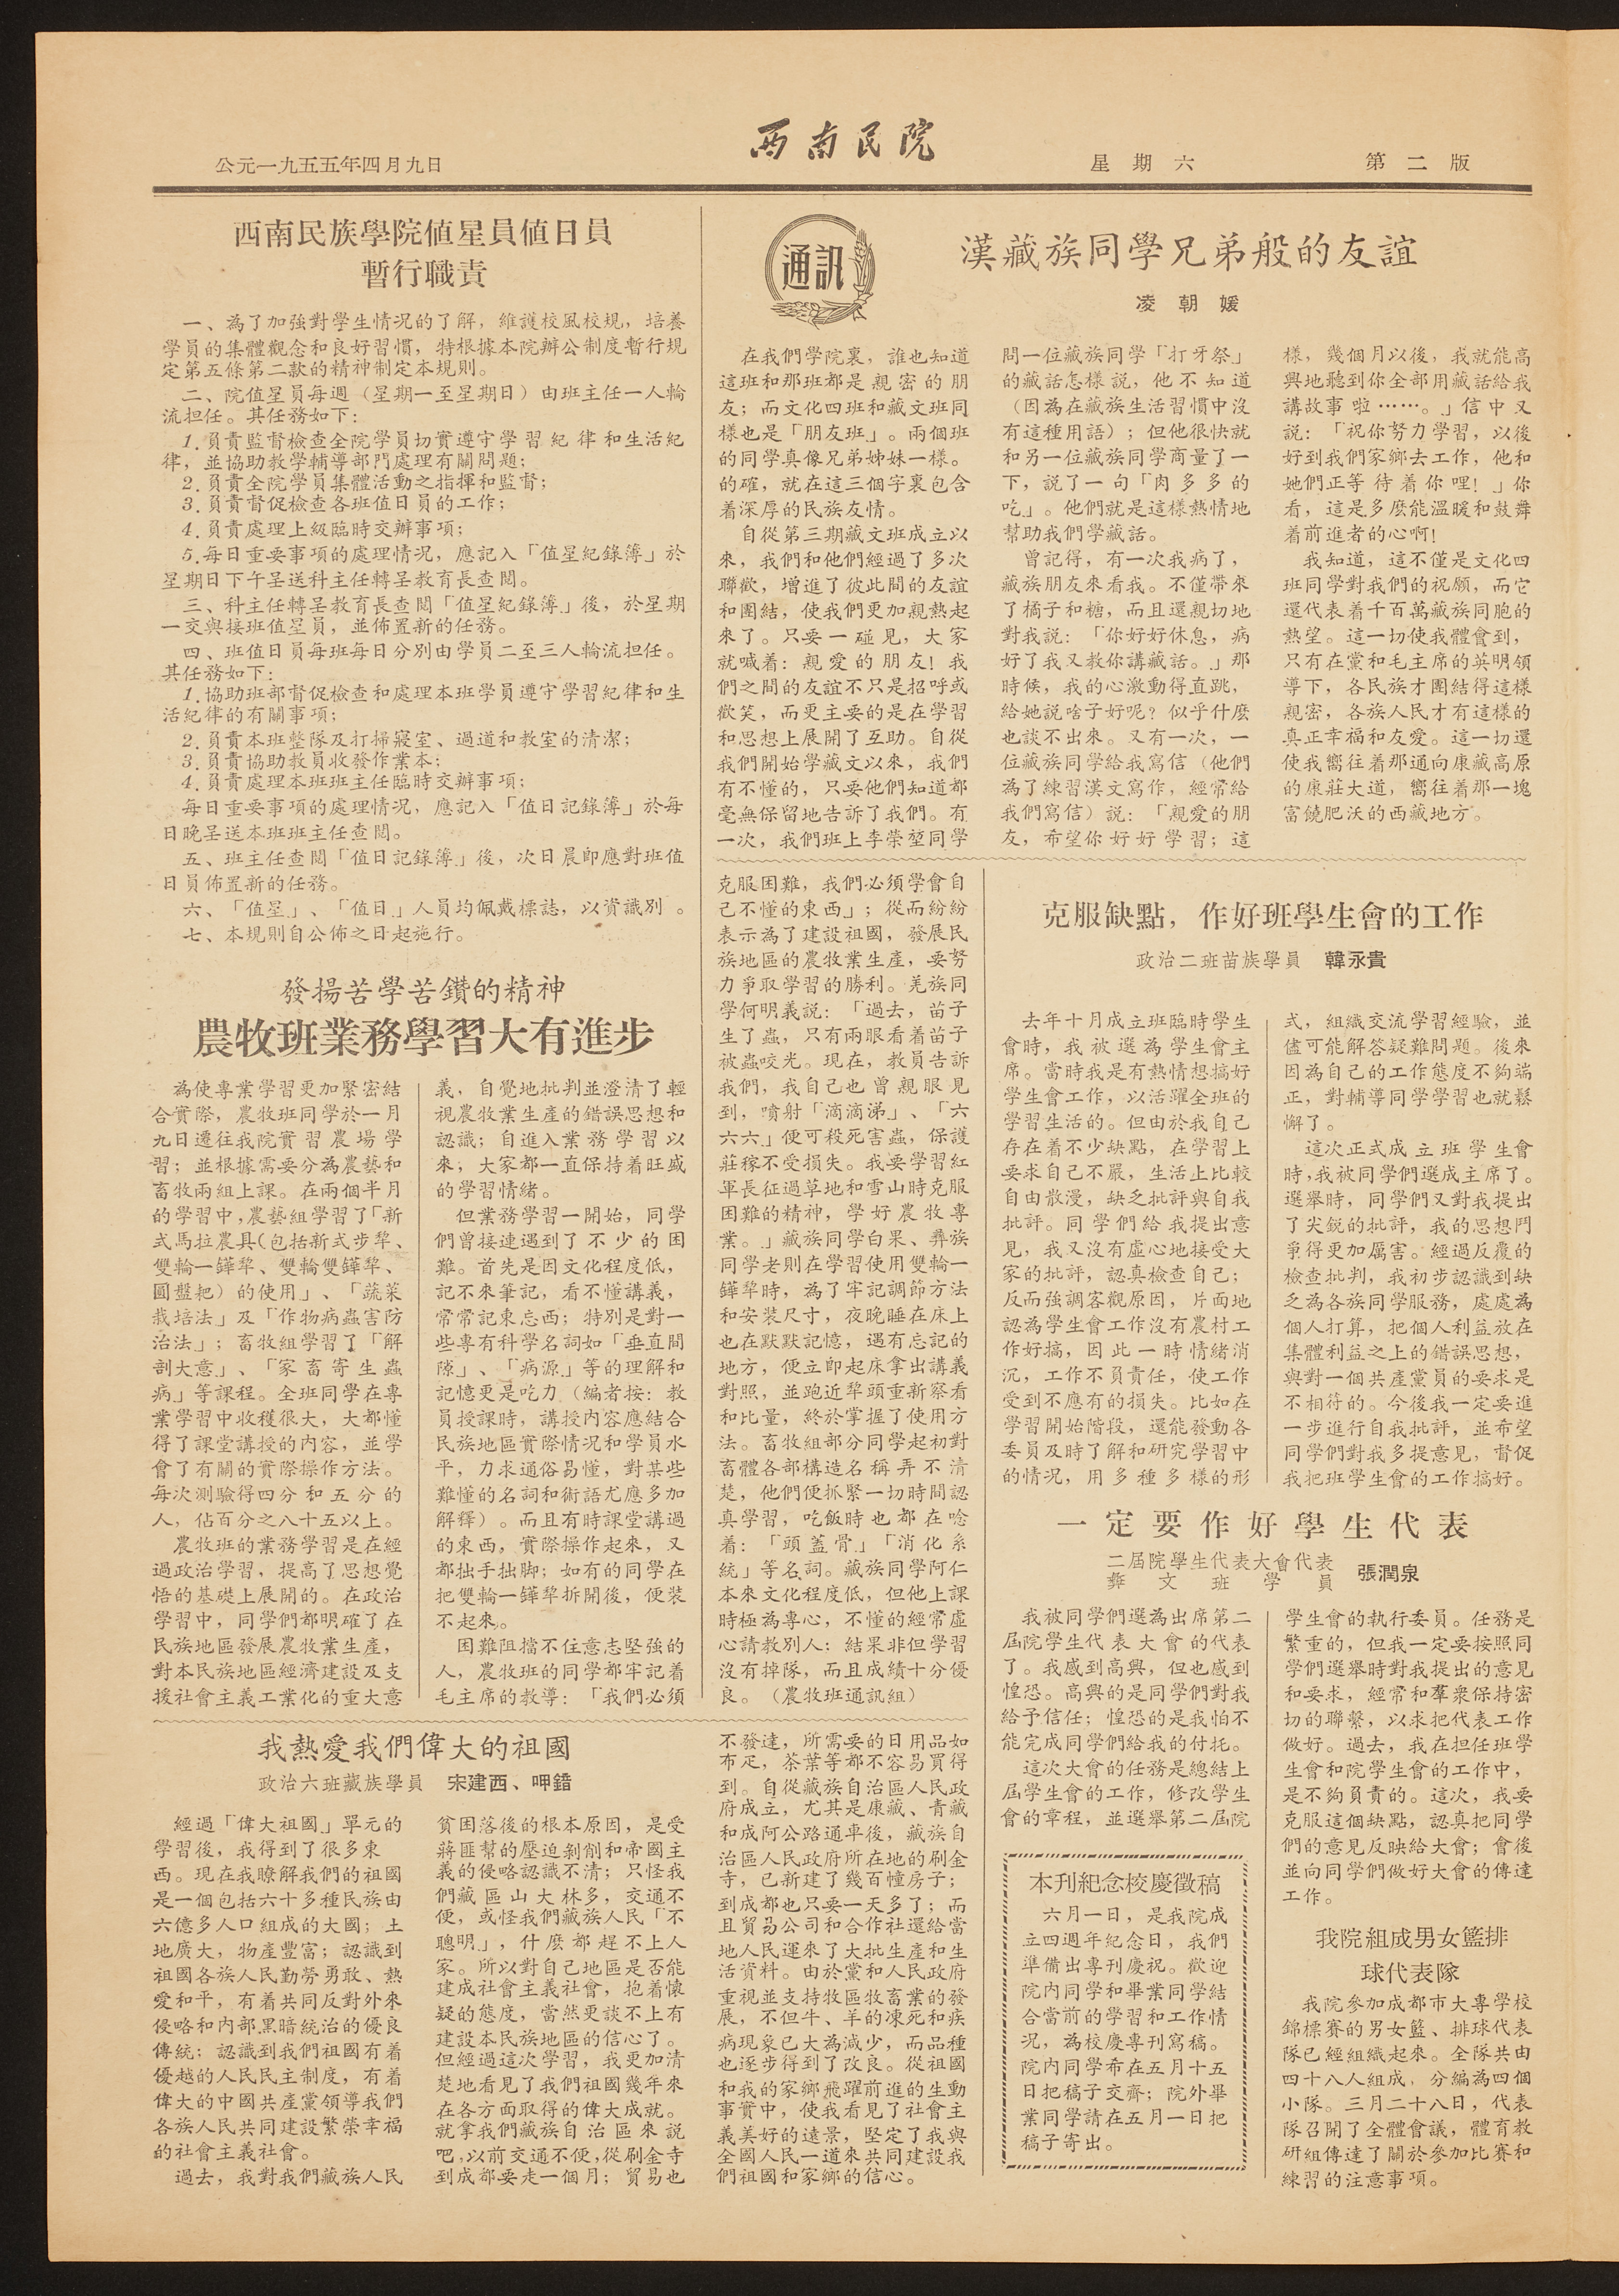公元一九五五年四月九日 西南民院 星期六 第二版
通訊
漢藏族同學兄弟般的友誼
凌朝媛
在我們學院裏，誰也知道
這班和那班都是親密的朋
友；而文化四班和藏文版同
樣也是「朋友班」。兩個班
的同學真像兄弟姊妹一樣。
的確，就在這三個字裏包含
着深厚的民族友情。
自從第三期藏文班成立以
來，我們和他們經過了多次
聯歡，增進了彼此間的友誼
和團結，使我們更加親熱起
來了。只要一碰見，大家
就喊着：親愛的朋友！我
們之間的友誼不只是招呼或
歡笑，而更主要的是在學習
和思想上展開了互助。自從
我們開始學藏文以來，我們
有不懂的，只要他們知道都
毫無保留地告訴了我們。有
一次，我們班上李榮堃同學
問一位藏族同學「打牙祭」
的藏話怎樣說，他不知道
（因爲在藏族生活習慣中沒
有這種用語）；但他很快就
和另一位藏族同學商量了一
下，說了一句「肉多多的
吃」。他們就是這樣熱情地
幫助我們學藏話。
曾記得，有一次我病了，
藏族朋友來看我。不僅帶來
了橘子和糖，而且還親切地
對我說：「你好好休息，病
好了我又教你講藏話。」那
時候，我的心激動得直跳，
給她說啥子好呢？似乎什麼
也談不出來。又有一次，一
位藏族同學給我寫信（他們
爲了練習漢文寫作，經常給
我們寫信）說：「親愛的朋
友，希望你好好學習；這
樣，幾個月以後，我就能高
興地聽到你全部用藏話給我
講故事啦……。」信中又
說：「祝你努力學習，以後
好到我們家鄉去工作，他和
她們正等待着你哩！」你
看，這是多麼能溫暖和鼓舞
着前進者的心啊！
我知道，這不僅是文化四
班同學對我們的祝願，而它
還代表着千百萬藏族同胞的
熱望。這一切使我體會到，
只有在黨和毛主席的英明領
導下，各民族才團結得這樣
親密，各族人民才有這樣的
真正幸福和友愛。這一切還
使我嚮往着那通向康藏高原
的康莊大道，嚮往着那一塊
富饒肥沃的西藏地方。
西南民族學院値星員値日員
暫行職責
一、爲了加強對學生情況的了解，維護校風校規，培養
學員的集體觀念和良好習慣，特根據本院辦公制度暫行規
定第五條第二款的精神制定本規則。
二、院值星員每週（星期一至星期日）由班主任一人輪
流担任。其任務如下：
1.負責監督檢查全院學員切實遵守學習紀律和生活紀
律，並協助教學輔導部門處理有關問題；
2.負責全院學員集體活動之指揮和監督；
3.負責督促檢查各班值日員的工作；
4.負責處理上級臨時交辦事項；
5.每日重要事項的處理情況，應記入「值星紀錄簿」於
星期日下午呈送科主任轉呈教育長查閱。
三、科主任轉呈教育長查閱「值星紀錄簿」後，於星期
一交與接班值星員，並佈置新的任務。
四、班值日員每班每日分別由學員二至三人輪流担任。
其任務如下：
1.協助班部督促檢查和處理本班學員遵守學習紀律和生
活紀律的有關事項；
2.負責本班整隊及打掃寢室、過道和教室的清潔；
3.負責協助教員收發作業本；
4.負責處理本班班主任臨時交辦事項；
每日重要事項的處理情況，應記入「值日紀錄簿」於每
日晚呈送本班班主任查閱。
五、班主任查閱「值日紀錄簿」後，次日晨卽應對班值
日員佈置新的任務。
六、「值星」、「值日」人員均佩戴標誌，以資識別。
七、本規則自公佈之日起施行。
發揚苦學苦鑽的精神
農牧班業務學習大有進步
爲使專業學習更加緊密結
合實際，農牧班同學於一月
九日遷往我院實習農場學
習；並根據需要分爲農藝和
畜牧兩組上課。在兩個半月
的學習中，農藝組學習了「新
式馬拉農具（包括新式步犂、
雙輪一鏵犂、雙輪雙鏵犂、
圓盤耙）的使用」、「蔬菜
栽培法」及「作物病蟲害防
治法」；畜牧組學習了「解
剖大意」、「家畜寄生蟲
病」等課程。全班同學在專
業學習中收穫很大，大都懂
得了課堂講授的內容，並學
會了有關的實際操作方法。
每次測驗得四分和五分的
人，佔百分之八十五以上。
農牧班的業務學習是在經
過政治學習，提高了思想覺
悟的基礎上展開的。在政治
學習中，同學們都明確了在
民族地區發展農牧業生產，
對本民族地區經濟建設及支
援社會主義工業化的重大意
義，自覺地批判並澄清了輕
視農牧業生產的錯誤思想和
認識；自進入業務學習以
來，大家都一致保持着旺盛
的學習情緒。
但業務學習一開始，同學
們曾接連遇到了不少的困
難。首先是因文化程度低，
記不來筆記，看不懂講義，
常常記東忘西；特別是對一
些專有科學名詞如「垂直間
隙」、「病源」等的理解和
記憶更是吃力（編者按：教
員授課時，講授內容應結合
民族地區實際情況和學員水
平，力求通俗易懂，對某些
難懂的名詞和術語尤應多加
解釋）。而且有時課堂講過
的東西，實際操作起來，又
都拙手拙脚；如有的同學在
把雙輪一鏵犂拆開後，便裝
不起來。
困難阻擋不住意志堅強的
人，農牧班的同學都牢記着
毛主席的教導：「我們必須
克服困難，我們必須學會自
己不懂的東西」；從而紛紛
表示爲了建設祖國，發展民
族地區的農牧業生產，要努
力爭取學習的勝利。羌族同
學何明義說：「過去，苗子
生了蟲，只有兩眼看着苗子
被蟲咬光。現在，教員告訴
我們，我自己也曾親眼見
到，噴射「滴滴涕」、「六
六六」便可殺死害蟲，保護
莊稼不受損失。我要學習紅
軍長征過草地和雪山時克服
困難的精神，學好農牧專
業。」藏族同學白果、彝族
同學老則在學習使用雙輪一
鏵犂時，爲了牢記調節方法
和安裝尺寸，夜晚睡在床上
也在默默記憶，遇有忘記的
地方，便立卽起床拿出講義
對照，並跑近犂頭重新察看
和比量，終於掌握了使用方
法。畜牧組部分同學起初對
畜體各部構造名稱弄不清
楚，他們便抓緊一切時間認
真學習，吃飯時也都在唸
着：「頭蓋骨」「消化系
統」等名詞。藏族同學阿仁
本來文化程度低，但他上課
時極爲專心，不懂的經常虛
心請教別人：結果非但學習
沒有掉隊，而且成績十分優
良。
（農牧班通訊組）
克服缺點，作好班學生會的工作
政治二班苗族學員 韓永貴
去年十月成立班臨時學生
會時，我被選爲學生會主
席。當時我是有熱情想搞好
學生會工作，以活躍全班的
學習生活的。但由於我自己
存在着不少缺點，在學習上
要求自己不嚴，生活上比較
自由散漫，缺乏批評與自我
批評。同學們給我提出意
見，我又沒有虛心地接受大
家的批評，認真檢查自己；
反而強調客觀原因，片面地
認爲學生會工作沒有農村工
作好搞，因此一時情緒消
沉，工作不負責任，使工作
受到不應有的損失。比如在
學習開始階段，還能發動各
委員及時了解和研究學習中
的情況，用多種多樣的形
式，組織交流學習經驗，並
儘可能解答疑難問題。後來
因爲自己的工作態度不夠端
正，對輔導同學學習也就鬆
懈了。
這次正式成立班學生會
時，我被同學們選成主席了。
選舉時，同學們又對我提出
了尖銳的批評，我的思想鬥
爭得更加厲害。經過反覆的
檢查批判，我初步認識到缺
乏為各族同學服務，處處為
個人打算，把個人利益放在
集體利益之上的錯誤思想，
與對一個共產黨員的要求是
不相符的。今後我一定要進
一步進行自我批評，並希望
同學們對我多提意見，督促
我把班學生會的工作搞好。
我熱愛我們偉大的祖國
政治六班藏族學員 宋建西、呷錯
經過「偉大祖國」單元的
學習後，我得到了很多東
西。現在我瞭解我們的祖國
是一個包括六十多種民族由
六億多人口組成的大國；土
地廣大，物產豐富；認識到
祖國各族人民勤勞勇敢、熱
愛和平，有着共同反對外來
侵略和內部黑暗統治的優良
傳統；認識到我們祖國有着
優越的人民民主制度，有着
偉大的中國共產黨領導我們
各族人民共同建設繁榮幸福
的社會主義社會。
過去，我對我們藏族人民
貧困落後的根本原因，是受
蔣匪幫的壓迫剝削和帝國主
義的侵略認識不清；只怪我
們藏區山大林多，交通不
便，或怪我們藏族人民「不
聰明」，什麼都趕不上人
家。所以對自己地區是否能
建成社會主義社會，抱着懷
疑的態度，當然更談不上有
建設本民族地區的信心了。
但經過這次學習，我更加清
楚地看見了我們祖國幾年來
在各方面取得的偉大成就。
就拿我們藏族自治區來說
吧，以前交通不便，從刷金寺
到成都要走一個月；貿易也
不發達，所需要的日用品如
布疋，茶葉等都不容易買得
到。自從藏族自治區人民政
府成立，尤其是康藏、青藏
和成阿公路通車後，藏族自
治區人民政府所在地的刷金
寺，已新建了幾百幢房子；
到成都也只要一天多了；而
且貿易公司和合作社還給當
地人民運來了大批生產和生
活資料。由於黨和人民政府
重視並支持牧區畜牧業的發
展，不但牛、羊的凍死和疾
病現象已大為減少，而品種
也逐步得到了改良。從祖國
和我的家郷飛躍前進的生動
事實中，使我看見了社會主
義美好的遠景，堅定了我與
全國人民一道來共同建設我
們祖國和家鄉的信心。
一 定 要 作 好 學 生 代 表
二屆院學生代表大會代表
彝 文 班 學 員
張潤泉
我被同學們選為出席第二
屆院學生代表大會的代表
了。我感到高興，但也感到
惶恐。高興的是同學們對我
給予信任；惶恐的是我怕不
能完成同學們給我的付托。
這次大會的任務是總結上
屆學生會的工作，修改學生
會的章程，並選舉第二屆院
學生會的執行委員。任務是
繁重的，但我一定要按照同
學們選舉時對我提出的意見
和要求，經常和羣衆保持密
切的聯繫，以求把代表工作
做好。過去，我在担任班學
生會和院學生會的工作中，
是不夠負責的。這次，我要
克服這個缺點，認真把同學
們的意見反映給大會；會後
並向同學們做好大會的傳達
工作。
我院組成男女籃排
球代表隊
我院參加成都市大專學校
錦標賽的男女籃、排球代表
隊已經組織起來。全隊共由
四十八人組成，分編為四個
小隊。三月二十八日，代表
隊召開了全體會議，體育教
研組傳達了關於參加比賽和
練習的注意事項。
本刊紀念校慶徵稿
六月一日，是我院成
立四週年紀念日，我們
準備出專刊慶祝。歡迎
院內同學和畢業同學結
合當前的學習和工作情
況，為校慶專刊寫稿。
院內同學希在五月十五
日把稿子交齊；院外畢
業同學請在五月一日把
稿子寄出。
